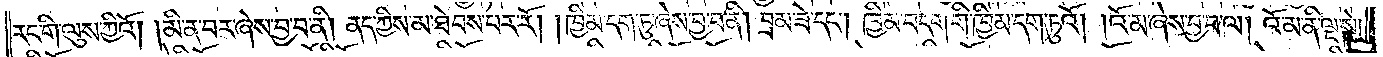རང་གི་ལུས་ཀྱིའོ། །མི་ན་བར་ཞེས་བྱ་བ་ནི། ནད་ཀྱིས་མ་ཐེབས་པར་རོ། །ཁྱིམ་དག་ཏུ་ཞེས་བྱ་བ་ནི། བྲམ་ཟེ་དང༌། ཁྱིམ་བདག་གི་ཁྱིམ་དག་ཏུའོ། །འོ་མ་ཞེས་བྱ་བ་ལ། འོ་མ་ནི་ལྔ་སྟེ།
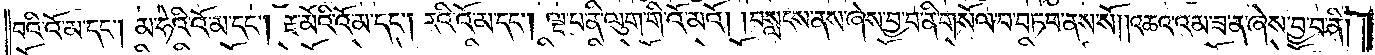བའི་འོ་མ་དང༌། མ་ཧེའི་འོ་མ་དང༌། རྔ་མོའི་འོ་མ་དང༌། རའི་འོ་མ་དང༌། ལྔ་པ་ནི་ལུག་གི་འོ་མའོ། བསླངས་ནས་ཞེས་བྱ་བ་ནི་གསོལ་བ་བཏབ་ནས་སོ། །འཆའ་འམ་ཟ་ན་ཞེས་བྱ་བ་ནི།
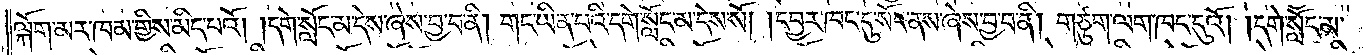ལྐོག་མར་ཁམ་གྱིས་མིད་པའོ། །དགེ་སློང་མ་དེས་ཞེས་བྱ་བ་ནི། གང་ཡིན་པའི་དགེ་སློང་མ་དེས་སོ། །དབྱར་ཁང་དུ་སོང་ནས་ཞེས་བྱ་བ་ནི། གཙུག་ལག་ཁང་དུའོ། །དགེ་སློང་མ་
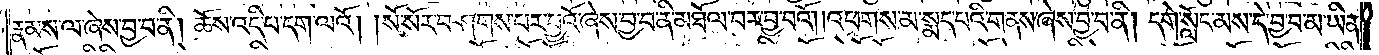རྣམས་ལ་ཞེས་བྱ་བ་ནི། ཆོས་འདི་པ་དག་ལའོ། །སོ་སོར་བཤགས་པར་བྱའོ་ཞེས་བྱ་བ་ནི་མཐོལ་བར་བྱ་བའོ། །འཕགས་མ་སྨད་པའི་གནས་ཞེས་བྱ་བ་ནི། དགེ་སློང་མས་དེ་བྱ་བ་མ་ཡིན་
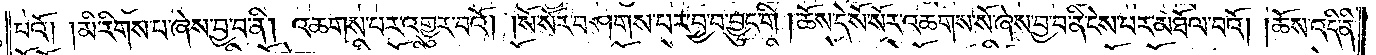པའོ། །མི་རིགས་པ་ཞེས་བྱ་བ་ནི། འཆགས་པར་འགྱུར་བའོ། །སོ་སོར་བཤགས་པར་བྱ་བ་བྱུང་གི །ཆོས་དེ་སོ་སོར་འཆགས་སོ་ཞེས་བྱ་བ་ནི་ངེས་པར་མཐོལ་བའོ། །ཆོས་འདི་ནི་
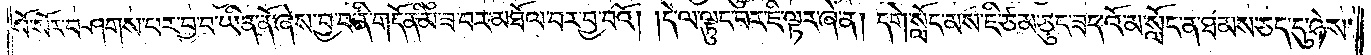སོ་སོར་བཤགས་པར་བྱ་བ་ཡིན་ནོ་ཞེས་བྱ་བ་ནི་གདོན་མི་ཟ་བར་མཐོལ་བར་བྱ་བའོ། །དེ་ལ་ལྟུང་བར་ཇི་ལྟར་ཞེ་ན། དགེ་སློང་མས་ཇི་ཙམ་ཅུང་ཟད་འོ་མ་སློང་ན་ཐམས་ཅད་དུ་ཉེས་
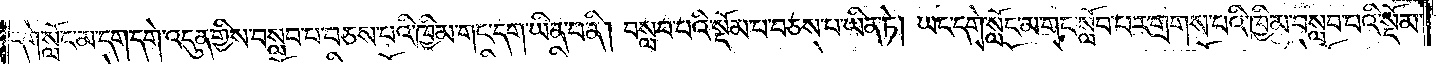དགེ་སློང་མ་དག་དགེ་འདུན་གྱིས་བསླབ་པ་བཅས་པའི་ཁྱིམ་གང་དག་ཡིན་པ་ནི། བསླབ་པའི་སྡོམ་པ་བཅས་པ་ཡིན་ཏེ། ཡང་དགེ་སློང་མ་གང་སློབ་པར་གྲགས་པའི་ཁྱིམ་བསླབ་པའི་སྡོམ་
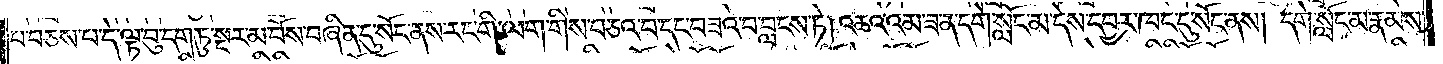པ་བཅས་པ་དེ་ལྟ་བུ་དག་ཏུ་སྔར་མ་བོས་བཞིན་དུ་སོང་ནས་རང་གི་ལག་གིས་བཅའ་བ་དང་བཟའ་བ་བླངས་ཏེ། འཆའ་འམ་ཟ་ན་དགེ་སློང་མ་དེས་དབྱར་ཁང་དུ་སོང་ནས། དགེ་སློང་མ་རྣམས་
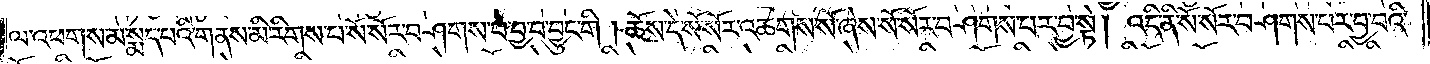ལ་འཕགས་མ་སྨད་པའི་གནས་མི་རིགས་པ་སོ་སོར་བཤགས་པར་བྱ་བ་བྱུང་གི །ཆོས་དེ་སོ་སོར་འཆགས་སོ་ཞེས་སོ་སོར་བཤགས་པར་བྱ་སྟེ། འདི་ནི་སོ་སོར་བཤགས་པར་བྱ་བའི་
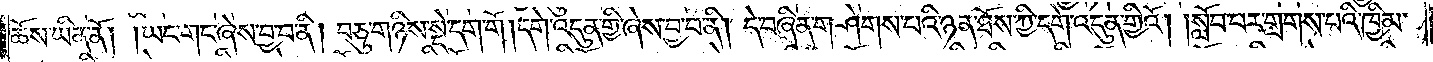ཆོས་ཡིན་ནོ། །ཡང་གང་ཞེས་བྱ་བ་ནི། བཅུ་གཉིས་སྡེ་དག་གོ། དགེ་འདུན་གྱི་ཞེས་བྱ་བ་ནི། དེ་བཞིན་གཤེགས་པའི་ཉན་ཐོས་ཀྱི་དགེ་འདུན་གྱིའོ། །སློབ་པར་གྲགས་པའི་ཁྱིམ་
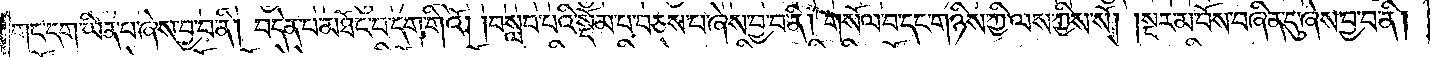གང་དག་ཡིན་པ་ཞེས་བྱ་བ་ནི། བདེན་པ་མཐོང་བ་དག་གིའོ། །བསླབ་པའི་སྡོམ་པ་བཅས་པ་ཞེས་བྱ་བ་ནི། གསོལ་བ་དང་གཉིས་ཀྱི་ལས་ཀྱིས་སོ། །སྔར་མ་བོས་བཞིན་དུ་ཞེས་བྱ་བ་ནི།
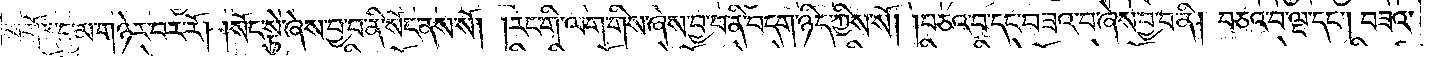མགྲོན་དུ་མ་གཉེར་བར་རོ། །སོང་སྟེ་ཞེས་བྱ་བ་ནི་སོང་ནས་སོ། །རང་གི་ལག་གིས་ཞེས་བྱ་བ་ནི་བདག་ཉིད་ཀྱིས་སོ། །བཅའ་བ་དང་བཟའ་བ་ཞེས་བྱ་བ་ནི། བཅའ་བ་ལྔ་དང༌། བཟའ་
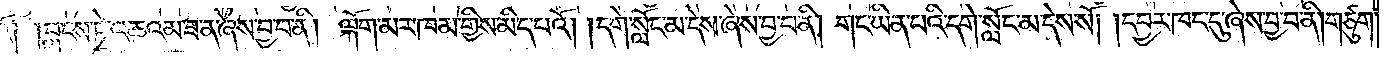བ་ལྔའོ། །བླངས་ཏེ་འཆའམ་ཟ་ན་ཞེས་བྱ་བ་ནི། ལྐོག་མར་ཁམ་གྱིས་མིད་པའོ། །དགེ་སློང་མ་དེས་ཞེས་བྱ་བ་ནི། གང་ཡིན་པའི་དགེ་སློང་མ་དེས་སོ། །དབྱར་ཁང་དུ་ཞེས་བྱ་བ་ནི། གཙུག་
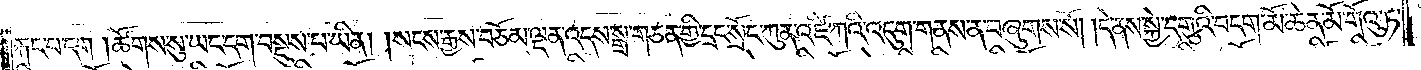རྐང་པ་དག །ཚོགས་སུ་ཡང་དག་བསྡུས་པ་ཡིན། །སངས་རྒྱས་བཅོམ་ལྡན་འདས་སྒྲ་གཅན་གྱི་དྲང་སྲོང་ཀུན་འཛི་ཀའི་འདུག་གནས་ན་བཞུགས་སོ། །དེ་ནས་སྐྱེ་དགུའི་བདག་མོ་ཆེན་མོ་གོའུ་ཏ་
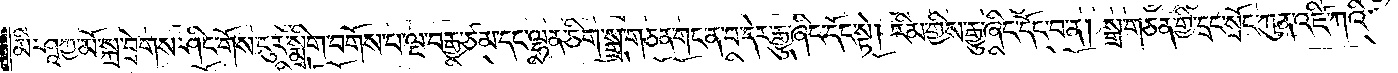མི་ཤཱཀྱ་མོ་སྐྲ་བྲེགས་ཤིང་གོས་ངུར་སྨྲིག་བགོས་པ་ལྔ་བརྒྱ་ཙམ་དང་ལྷན་ཅིག་སྒྲ་གཅན་གང་ན་བ་དེར་རྒྱུ་ཞིང་དོང་སྟེ། རིམ་གྱིས་རྒྱུ་ཞིང་དོང་བ་ན། སྒྲ་གཅན་གྱི་དྲང་སྲོང་ཀུན་འཛི་ཀའི་
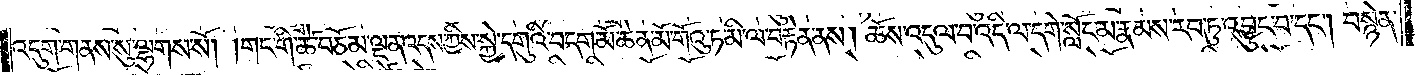འདུག་གནས་སུ་ལྷགས་སོ། །གང་གི་ཚེ་བཅོམ་ལྡན་འདས་ཀྱིས་སྐྱེ་དགུའི་བདག་མོ་ཆེན་མོ་གོའུ་ཏ་མི་ལ་བརྟེན་ནས། ཆོས་འདུལ་བ་འདི་ལ་དགེ་སློང་མ་རྣམས་རབ་ཏུ་འབྱུང་བ་དང༌། བསྙེན་
